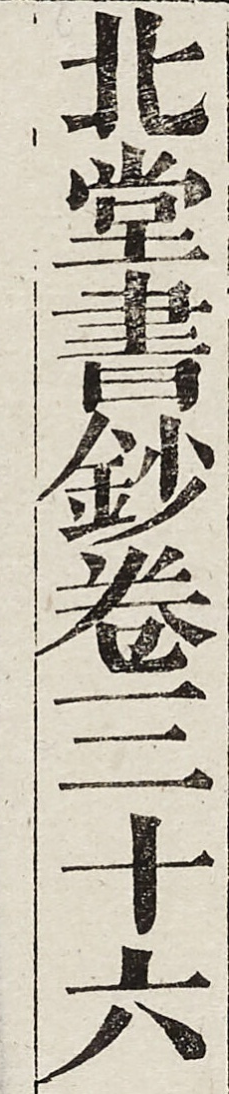北堂書鈔卷第三十六
